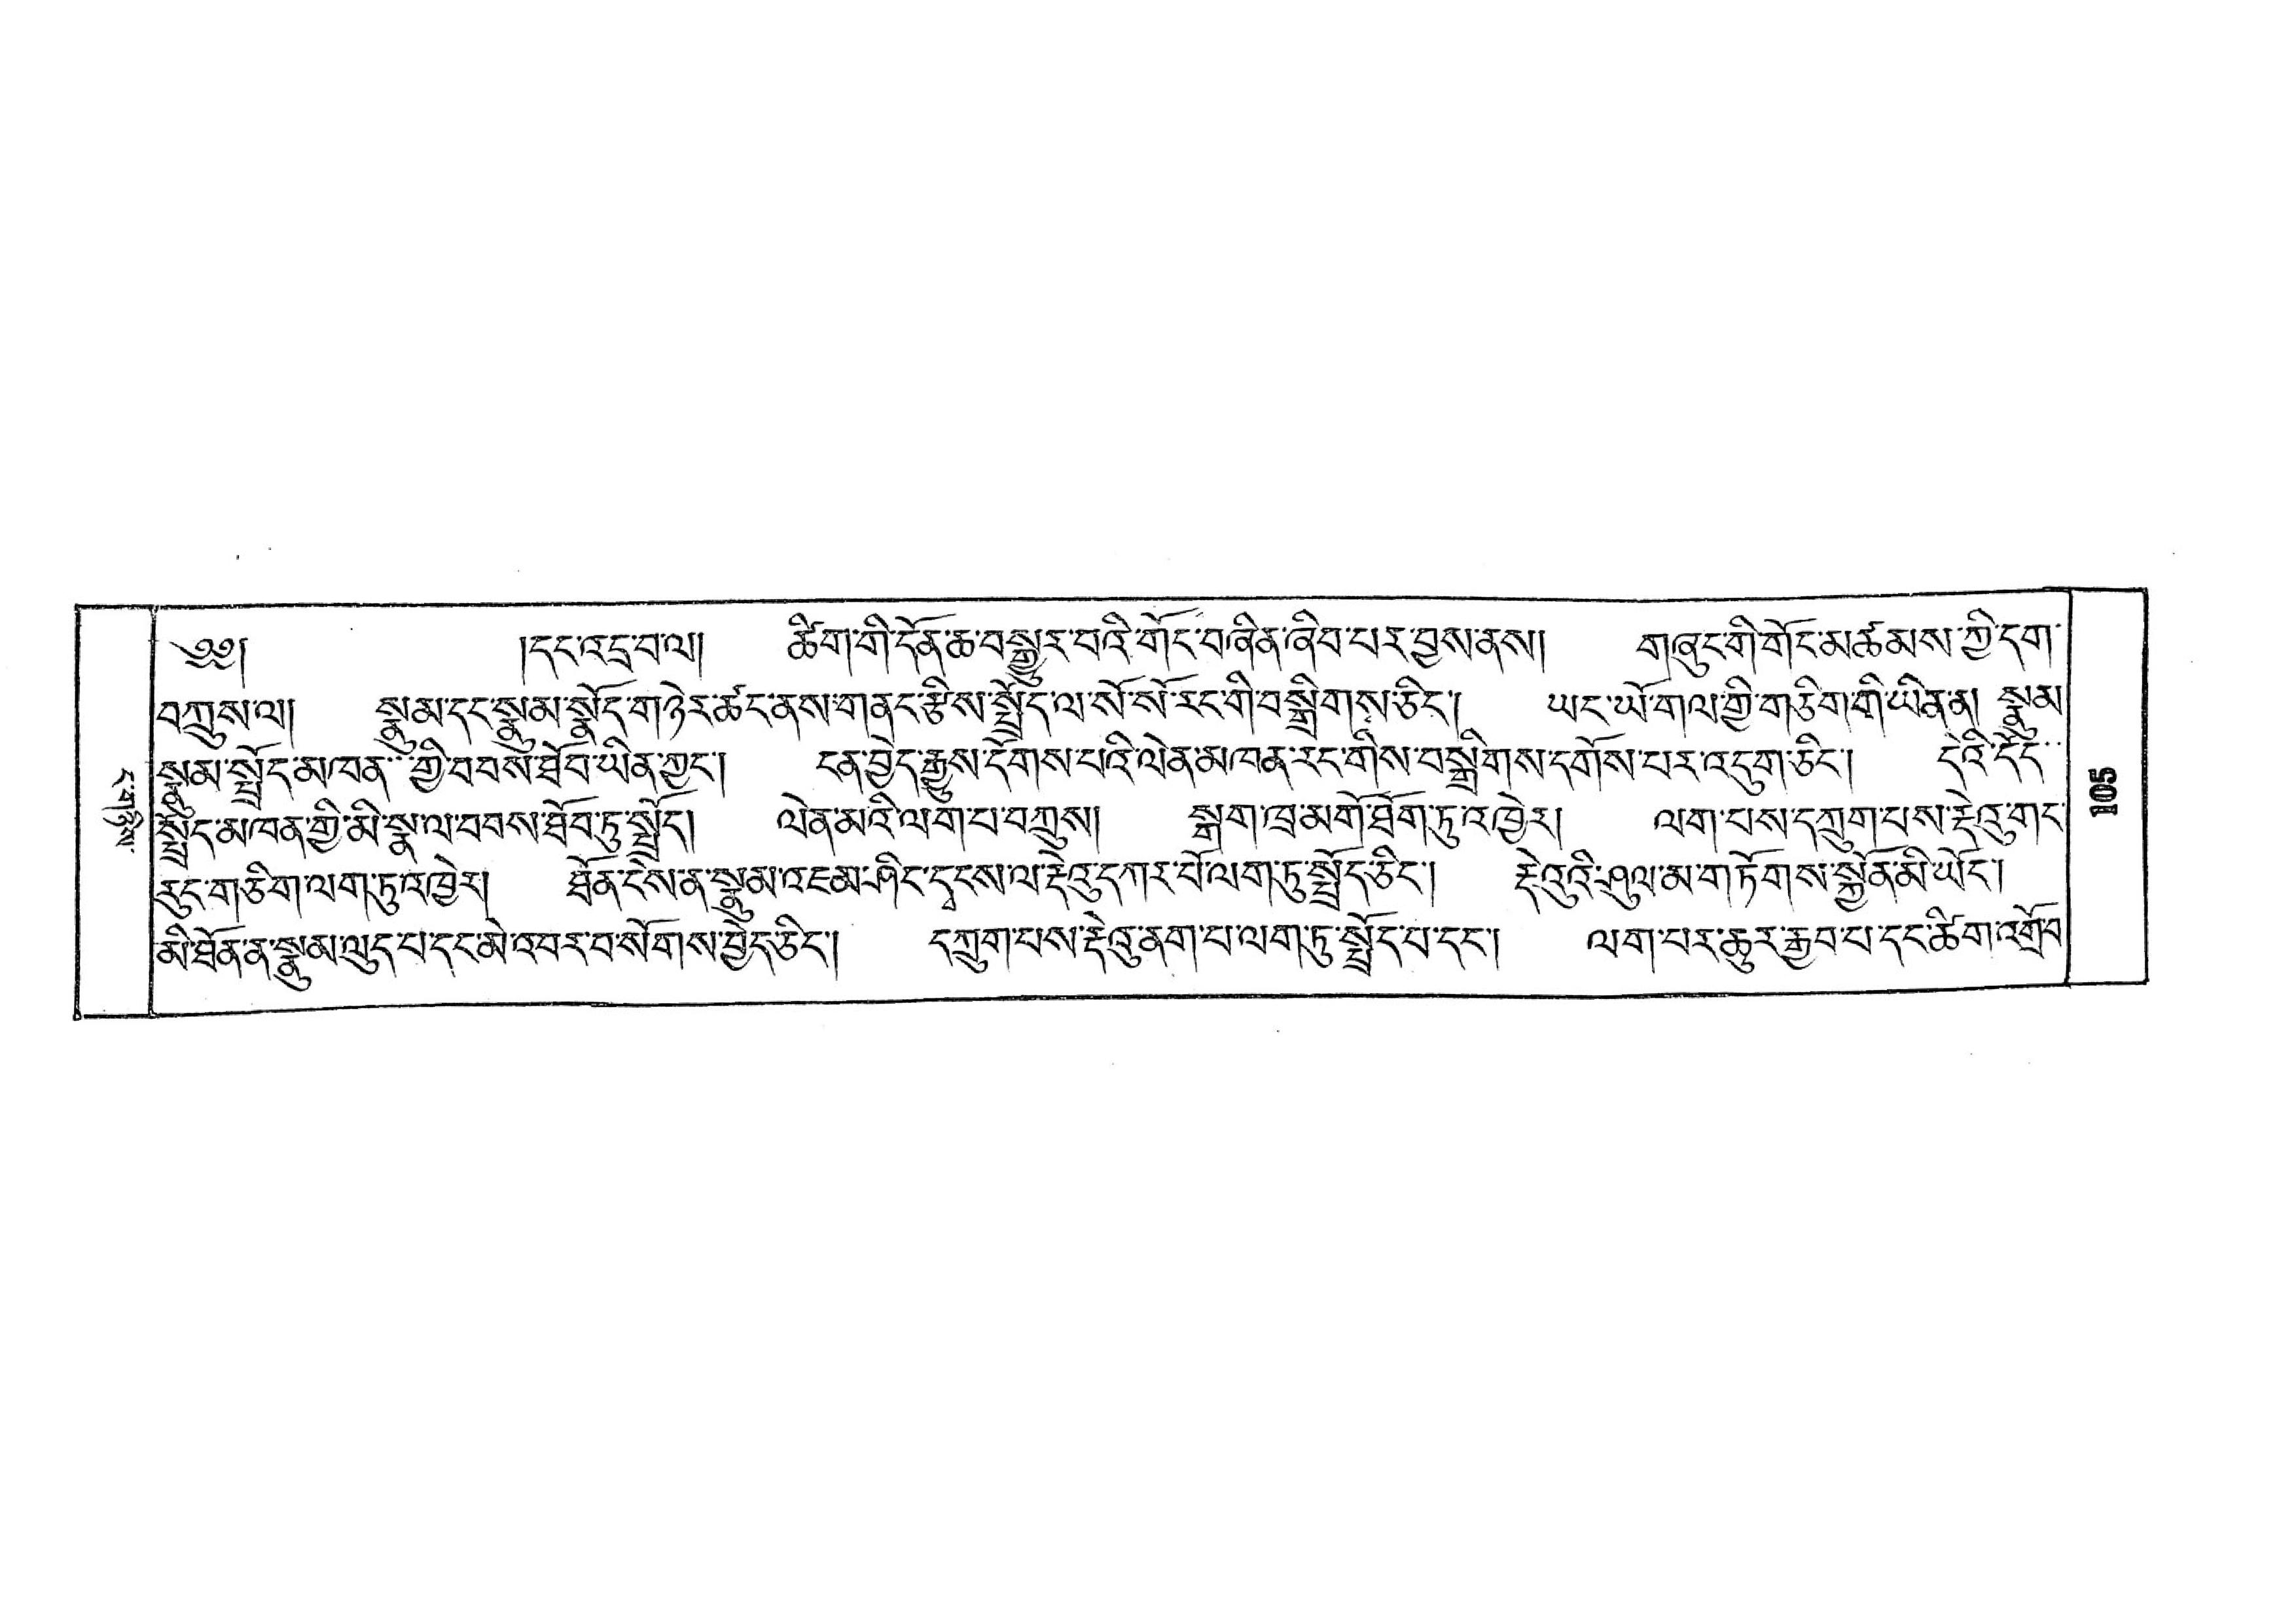ང་གཉིས་
༄༅།  །དང་འདྲ་བ་ལ། ཚིག་གི་དོན་ཆ་བསྒྱུར་བའི་གོང་བཞོན་ཞིབ་པར་བྱས་ནས། གཞུང་གི་གོང་མཚམས་ཀྱི་དག་
བཀྲུས་ལ། སྣུམ་དང་སྣུམ་སྣོད་གཉེར་ཚང་ནས་གནང་རྩིས་སྤྲོད་ལ་སོ་སོ་རང་གི་བསྒྲིགས་ཅིང་། ཡར་ཡོ་གལ་གྱི་གཅིག་གི་ཡིན་ན། སྣུམ་
སམ་སྤྲོད་མཁན་གྱི་བབསོ་ཐོབ་ཡིན་ཀྱང་། དན་བྱེད་རྒྱས་དེགས་པའི་ལིན་མཁན་རང་གིས་བསྒྲིགས་དགོས་པར་འདུག་ཅིད། དེའི་དིད་
སྤྲོད་མཁན་གྱི་མི་སྣ་ལ་བབས་ཐོབ་ཏུ་སྤྲོད། ལེན་མའི་ལག་པ་བཀྲུས། སྒག་ཁྲ་མགོ་ཐོག་ཏུ་འཁྱེར། ལག་པས་དཀྲུག་པས་རྡེའུ་གང་
རུང་གཅིག་ལག་ཏུ་འཁྱེར། ཐོན་ངེས་ན་སྣུམ་འཇམ་ཤིང་དྭངས་ལ་རྡེའུ་དཀར་པོ་ལག་ཏུ་སྤྲོད་ཅིང་། རྡེའུའི་ཤུལ་མ་གཏོགས་སྐྱོན་མི་ཡོང་།
མི་ཐོན་ན་སྣུམ་ལུད་པ་དང་མེ་འབར་བ་སོགས་བྱེད་ཅིང་། དཀྲུག་པས་རྡེའུ་ནག་པ་ལག་ཏུ་སྤྲོད་པ་དང་། ལག་པར་ཆུར་རྒྱབ་པ་དད་ཚིགའགྲོ་བ་
